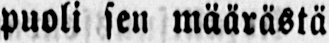puoli sen määrästä.
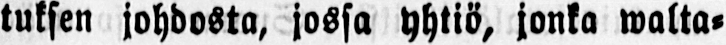tuksen johdosta, jossa yhtiö, jonka walta-
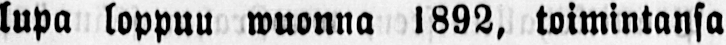lupa loppuu wuonna 1892, toimintansa
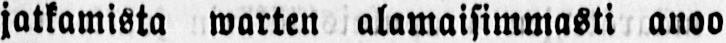jatkamista warten alamaisimmasti anoo
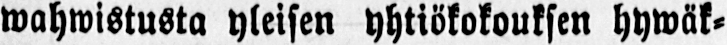wahwistusta yleisen yhtiökokouksen hywäk-
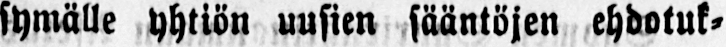symälle yhtiön uusien sääntöjen ehdotuk-
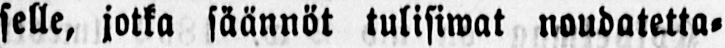selle, jotka säännöt tulisiwat noudatetta-
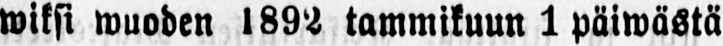wiksi wuoden l892 tammikuun 1 päiwästä
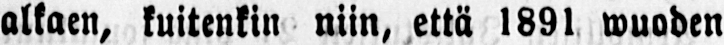alkaen, kuitenkin niin, että l891 wuoden
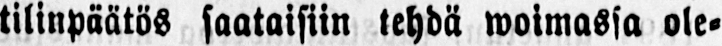tilinpäätös saataisiin tehdä woimassa ole-
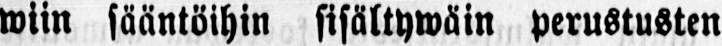wiin sääntöihin sisältywäin perustusten
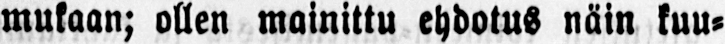mukaan; ollen mainittu ehdotus näin kuu-
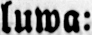luwa:
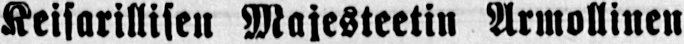Keisarillisen Majesteetin Armollinen
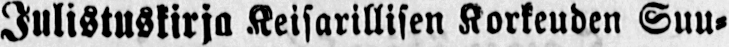Julistuskirja Keisarillisen Korkeuden Suu-
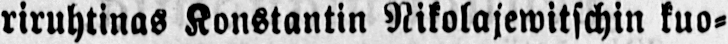riruhtinas Konstantin Nikolajewitschin kuo-
